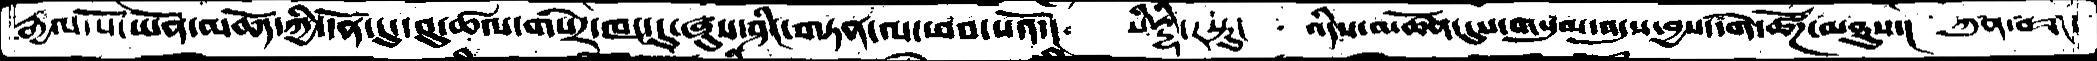རྒྱལ་པོ་ཡོན་མཆོད་ཀྱི་དོན་དུ་དབུ་ཚལ་གསེར་ཁང་དུ་ཞུས་ཤིང་གཏན་ལ་ཕབ་པའོ་། སིདྡྷི་རསྟུ། འདིས་མཚོན་དུས་གསུམ་འདུས་བྱས་དགེ་ཚོཌ་མཐུས་། ཀུན་བཟང་
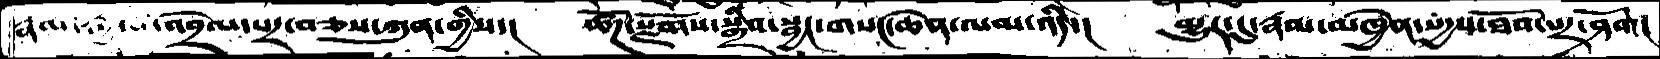རྣམ་རྒྱལ་འབྲེལ་པར་བཅས་ཀུན་གྱིས་།  ཚོཌ་སྫོགས་སྒྲིབ་སྦྱང་གསང་ཆེན་ལམ་འདི་།  མྱུར་དུ་རྣམ་མཁྱེན་སདྱས་ཐོབ་པར་ཤོག།
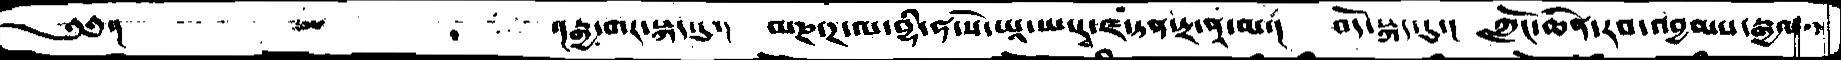༄༅་།                    ་།རྒྱ་གར་སྐད་དུ།  མཎ་ཌ་ལ་བྷི་ཧ་སེ་ཡཱ་ཡ་རྭ་ཛ་ཏན་ཏྲ་ནཱ་མ་།  བོད་སྐད་དུ།  ཀློང་ཆེན་རབ་འབྱམས་རྒྱལ་
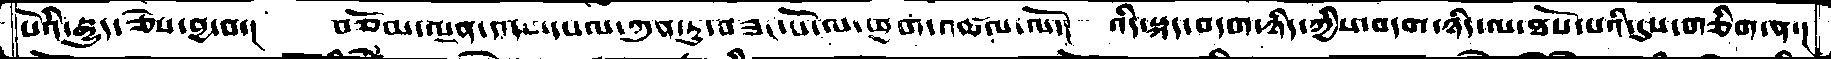པོའི་རྒྱུད་ཅེས་བྱ་བ་།  བཅོམ་ལྡན་འདས་དཔལ་ཀུན་ཏུ་བཟང་པོ་ལ་ཕྱག་འཚལ་ལོ་།  འདི་སྐད་བདག་ཉིད་ཀྱིས་བདག་ཉིད་ལ་ཐོས་པའི་དུས་གཅིག་ན་།
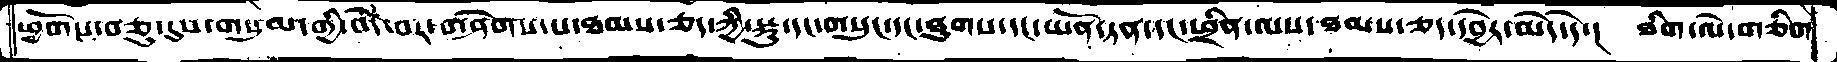ཕྱོགས་བཅུ་དུས་གསུམ་གྱི་བདེ་བར་གཤེགས་པ་ཐམས་ཅད་ཀྱི་སྐུ་དང་གསུང་དང་ཐུགས་དང་ཡོན་ཏན་དང་ཕྲིན་ལས་ཐམས་ཅད་དབྱེར་མེད་དེ་།  ཐིག་ལེ་གཅིག་
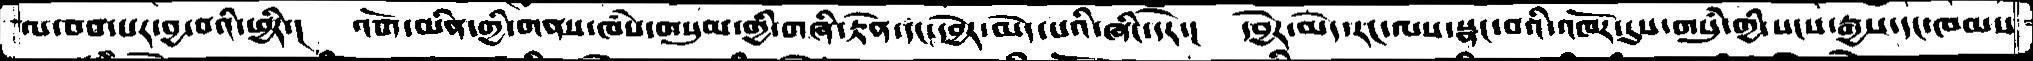ལ་བབ་པར་བྱ་བའི་ཕྱིར་།  འོག་མིན་གྱི་གནས་ཁཾས་གསུམ་གྱི་གཞི་རྟེན་དང་དབྱེར་མེད་པའི་ཞིང་དེར་།  དབྱེར་མེད་རང་ལས་སྣང་བའི་འཁོར་དུས་གསུཾ་གྱི་སངས་རྒྱས་དང་ཁམས་
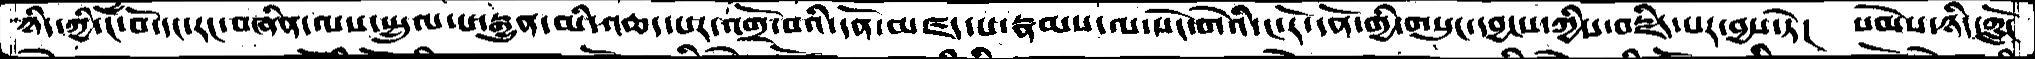ཉིད་ཀྱི་ངོ་བོ་དང་རང་བཞིན་ལས་སྤྲུལ་པ་རྒྱུན་མི་འཆད་པར་འགྲོ་བའི་དོན་མཛད་པ་རྣམས་ལ་སེང་གེའི་ང་རོ་དོན་གྱི་གསུང་དབྱངས་ཀྱིས་བརྗིད་པར་བྱས་ཏེ་།  སེམས་ཉིད་ཀློང
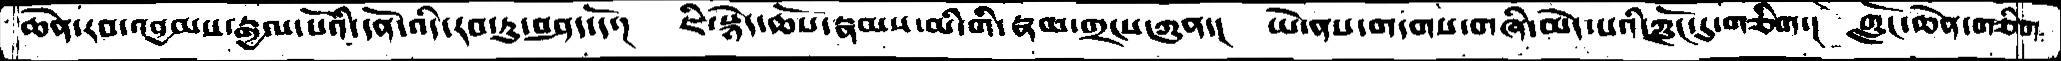ཆེན་རབ་འབྱམས་རྒྱལ་པོའི་དོན་འདི་རབ་ཏུ་བཤད་དོ་།  ཇི་སྙེད་ཆོས་རྣམས་མི་གི་རྣམ་གྲངས་ཀུན་།  ཡེ་ནས་གདགས་གཞི་མེད་པའི་ཀློང་དུ་གཅིག་།  ཀློང་ཆེན་གཅིག
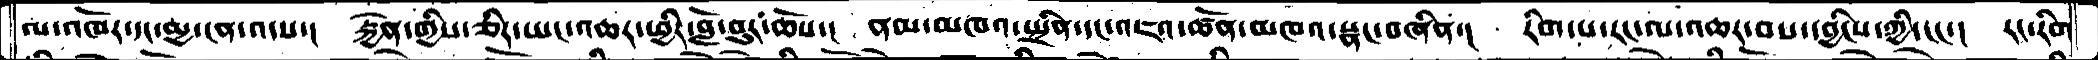ལ་འཁོར་དང་མྱ་ངན་འདས་།  རྐྱེན་གྱིས་ཅིར་ཡང་འཆར་ཕྱིར་བློ་བུར་ཆོས་།  ནམ་མཁའ་སྤྲིན་དང་འཇའ་ཚོན་མཁའ་སྣང་བཞིན་།  རིག་པ་རང་ལ་འཆར་བས་དབྱིངས་ཀྱི་ངང་།  རང་རིག
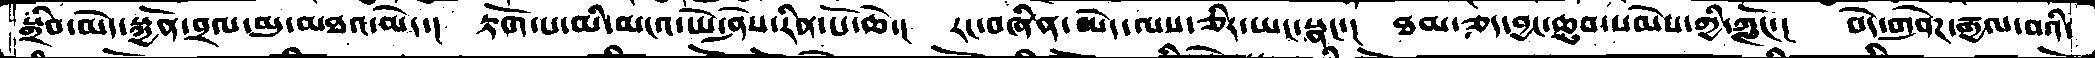སྒྲིབ་མེད་སྐྱོན་བྲལ་མུ་མཐའ་མེད་།  རྟོག་པ་མི་མངའ་ཡེ་ཤེས་རིན་པོ་ཆེ་།  རང་བཞིན་མེད་ལས་ཅིར་ཡང་སྣང་་།  ཐམ་ཅད་བྱང་ཆུབ་སེམས་ཀྱི་ཀློང་།  བདེ་གཤེཌ་རྒྱལ་བའི་
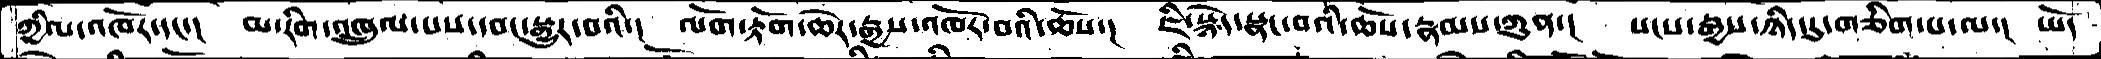ཀྱིལ་འཁོར་དང་།  མ་རིག་འཁྲུལ་པས་དབང་སྒྱུར་བའི་།  ལོག་རྟོག་ཆེར་རྒྱས་འཁོར་བའི་ཆོས་།  ཇི་སྙེད་སྣང་བའི་ཆོས་རྣམས་ཀུན་།  སངས་རྒྱས་ཉིད་དུ་གཅིག་པ་ལ་།  ཡོད
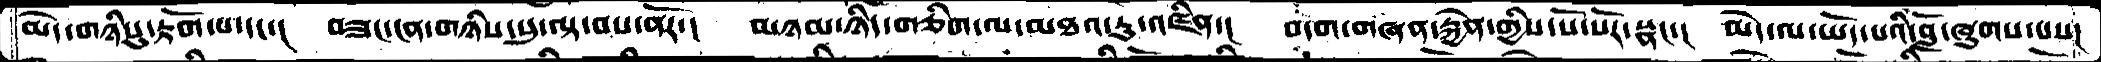མེད་གཉིསུ་རྟོག་པ་དང་།  བཟང་ངན་གཉིས་སུ་ལྟ་བས་ནོར་།  མཉམ་ཉིད་གཅིག་ལ་མཐའ་རུ་འཛིན་།  བདག་གཞན་རྐྱེན་གྱིས་སོ་སོར་སྣང་།  མེད་ལ་ཡོད་པའི་བློ་ཞུགས་པས་།
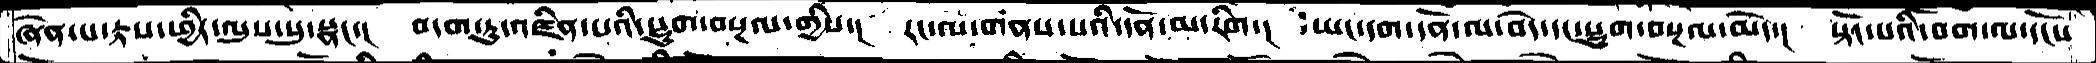ཞེན་པ་རྟས་ཕྱིར་ལུས་སུ་སྣང་།  བདག་ཏུ་འཛིན་པའི་སྡུག་བསྔལ་གྱིས་།  རང་ལ་གནས་པའི་དོན་མ་རིག་།  ཡང་དག་དོན་ལ་བདེ་དང་སྡུག་བསྔལ་མེད་།  སྟོང་པའི་བག་ལ་དངོས་
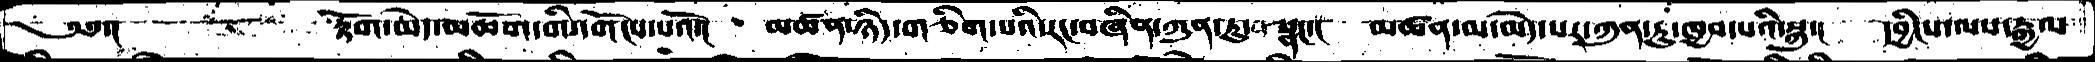༄༅་།      རྟོག་མེད་མཆོག་གི་དགོངས་པའོ་།  མཚན་ཉིད་གཅིག་པའི་རང་བཞིན་ཀུན་ཏུ་སྣང་   མཚན་མ་མེད་པར་ཀུན་ཏུ་ཁྱབ་པའི་སྐུ་།  དབྱིངས་ལས་རྒྱལ
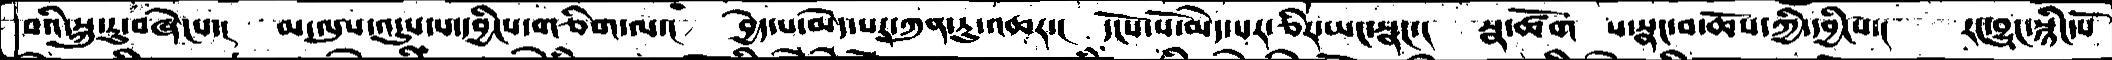བའི་སྐུ་རུ་བཞེངས་།   མ་ལུས་འདུས་པ་དབྱིངས་གཅིག་ལ་།   བྱེད་པ་མེད་པར་ཀུན་ཏུ་འཆར་།   དངོས་པོ་མེད་པར་ཅིར་ཡང་སྣང་།   སྣ་ོཚོགས་ པ་སྣང་བ་ཆོས་ཀྱི་དབྱིངས་།  རང་བྱུང་སྙིང་པོ་
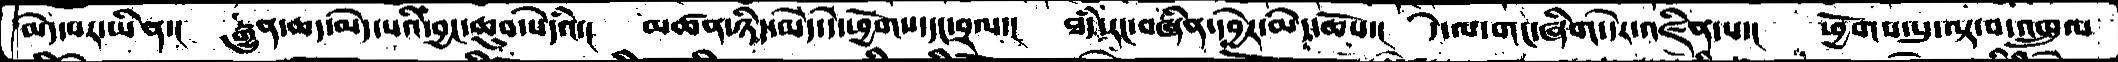མེད་པར་ཡིན་།   རྒྱུན་ཆད་མེད་པའི་བྱང་ཆུབ་སེདཾའ་།   མཚན་ཉིད་མེད་དེ་ཕྱོགས་དང་བྲལ་།  ཐཾད་རང་བཞིན་དབྱེར་མེད་ཆོས་།  དེ་ལ་གང་ཞིག་དེར་འཛིན་པ་།  ཕྱོགས་སུ་ལྟ་བ་འཁྲུལ
